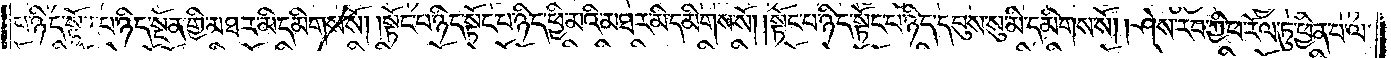པ་ཉིད་སྟོང་པ་ཉིད་སྔོན་གྱི་མཐར་མི་དམིགས་སོ། །སྟོང་པ་ཉིད་སྟོང་པ་ཉིད་ཕྱི་མའི་མཐར་མི་དམིགས་སོ། །སྟོང་པ་ཉིད་སྟོང་པ་ཉིད་དབུས་སུ་མི་དམིགས་སོ། །ཤེས་རབ་ཀྱི་ཕ་རོལ་ཏུ་ཕྱིན་པ་ལ་
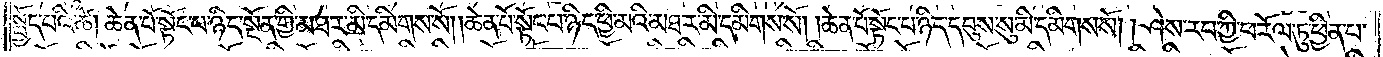སྤྱོད་པའི་ཚེ། ཆེན་པོ་སྟོང་པ་ཉིད་སྔོན་གྱི་མཐར་མི་དམིགས་སོ། །ཆེན་པོ་སྟོང་པ་ཉིད་ཕྱི་མའི་མཐར་མི་དམིགས་སོ། །ཆེན་པོ་སྟོང་པ་ཉིད་དབུས་སུ་མི་དམིགས་སོ། །ཤེས་རབ་ཀྱི་ཕ་རོལ་ཏུ་ཕྱིན་པ་
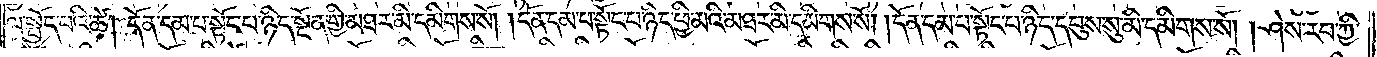ལ་སྤྱོད་པའི་ཚེ། དོན་དམ་པ་སྟོང་པ་ཉིད་སྔོན་གྱི་མཐར་མི་དམིགས་སོ། །དོན་དམ་པ་སྟོང་པ་ཉིད་ཕྱི་མའི་མཐར་མི་དམིགས་སོ། །དོན་དམ་པ་སྟོང་པ་ཉིད་དབུས་སུ་མི་དམིགས་སོ། །ཤེས་རབ་ཀྱི་
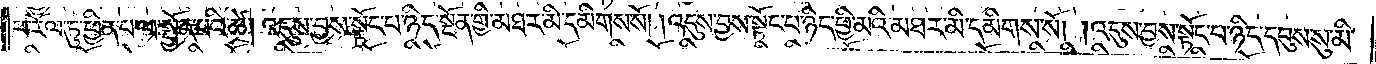ཕ་རོལ་ཏུ་ཕྱིན་པ་ལ་སྤྱོད་པའི་ཚེ། འདུས་བྱས་སྟོང་པ་ཉིད་སྔོན་གྱི་མཐར་མི་དམིགས་སོ། །འདུས་བྱས་སྟོང་པ་ཉིད་ཕྱི་མའི་མཐར་མི་དམིགས་སོ། །འདུས་བྱས་སྟོང་པ་ཉིད་དབུས་སུ་མི་
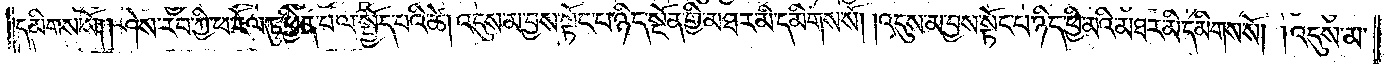དམིགས་སོ། །ཤེས་རབ་ཀྱི་ཕ་རོལ་ཏུ་ཕྱིན་པ་ལ་སྤྱོད་པའི་ཚེ། འདུས་མ་བྱས་སྟོང་པ་ཉིད་སྔོན་གྱི་མཐར་མི་དམིགས་སོ། །འདུས་མ་བྱས་སྟོང་པ་ཉིད་ཕྱི་མའི་མཐར་མི་དམིགས་སོ། །འདུས་མ་
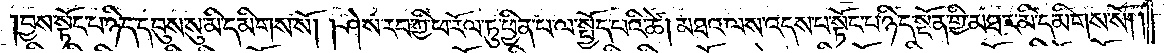བྱས་སྟོང་པ་ཉིད་དབུས་སུ་མི་དམིགས་སོ། །ཤེས་རབ་ཀྱི་ཕ་རོལ་ཏུ་ཕྱིན་པ་ལ་སྤྱོད་པའི་ཚེ། མཐའ་ལས་འདས་པ་སྟོང་པ་ཉིད་སྔོན་གྱི་མཐར་མི་དམིགས་སོ། །
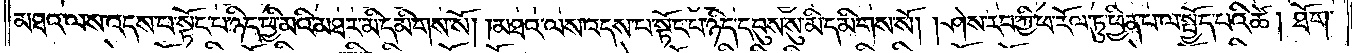མཐའ་ལས་འདས་པ་སྟོང་པ་ཉིད་ཕྱི་མའི་མཐར་མི་དམིགས་སོ། །མཐའ་ལས་འདས་པ་སྟོང་པ་ཉིད་དབུས་སུ་མི་དམིགས་སོ། །ཤེས་རབ་ཀྱི་ཕ་རོལ་ཏུ་ཕྱིན་པ་ལ་སྤྱོད་པའི་ཚེ། ཐོག་
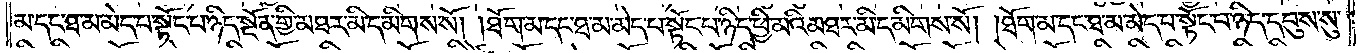མ་དང་ཐ་མ་མེད་པ་སྟོང་པ་ཉིད་སྔོན་གྱི་མཐར་མི་དམིགས་སོ། །ཐོག་མ་དང་ཐ་མ་མེད་པ་སྟོང་པ་ཉིད་ཕྱི་མའི་མཐར་མི་དམིགས་སོ། །ཐོག་མ་དང་ཐ་མ་མེད་པ་སྟོང་པ་ཉིད་དབུས་སུ་
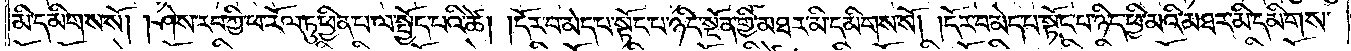མི་དམིགས་སོ། །ཤེས་རབ་ཀྱི་ཕ་རོལ་ཏུ་ཕྱིན་པ་ལ་སྤྱོད་པའི་ཚེ། དོར་བ་མེད་པ་སྟོང་པ་ཉིད་སྔོན་གྱི་མཐར་མི་དམིགས་སོ། །དོར་བ་མེད་པ་སྟོང་པ་ཉིད་ཕྱི་མའི་མཐར་མི་དམིགས་
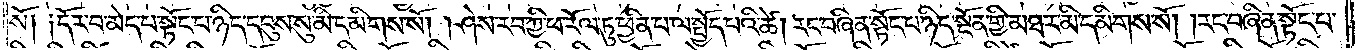སོ༑ ༑དོར་བ་མེད་པ་སྟོང་པ་ཉིད་དབུས་སུ་མི་དམིགས་སོ། །ཤེས་རབ་ཀྱི་ཕ་རོལ་ཏུ་ཕྱིན་པ་ལ་སྤྱོད་པའི་ཚེ། རང་བཞིན་སྟོང་པ་ཉིད་སྔོན་གྱི་མཐར་མི་དམིགས་སོ། །རང་བཞིན་སྟོང་པ་
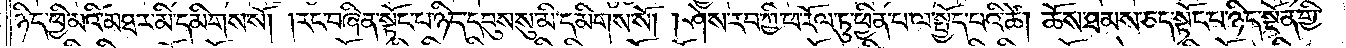ཉིད་ཕྱི་མའི་མཐར་མི་དམིགས་སོ། །རང་བཞིན་སྟོང་པ་ཉིད་དབུས་སུ་མི་དམིགས་སོ། །ཤེས་རབ་ཀྱི་ཕ་རོལ་ཏུ་ཕྱིན་པ་ལ་སྤྱོད་པའི་ཚེ། ཆོས་ཐམས་ཅད་སྟོང་པ་ཉིད་སྔོན་གྱི་
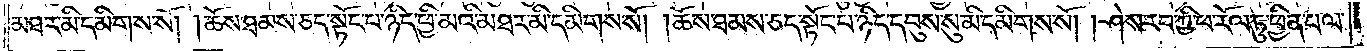མཐར་མི་དམིགས་སོ། །ཆོས་ཐམས་ཅད་སྟོང་པ་ཉིད་ཕྱི་མའི་མཐར་མི་དམིགས་སོ། །ཆོས་ཐམས་ཅད་སྟོང་པ་ཉིད་དབུས་སུ་མི་དམིགས་སོ། །ཤེས་རབ་ཀྱི་ཕ་རོལ་ཏུ་ཕྱིན་པ་ལ་
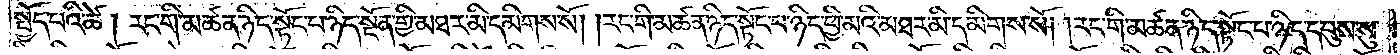སྤྱོད་པའི་ཚེ། རང་གི་མཚན་ཉིད་སྟོང་པ་ཉིད་སྔོན་གྱི་མཐར་མི་དམིགས་སོ། །རང་གི་མཚན་ཉིད་སྟོང་པ་ཉིད་ཕྱི་མའི་མཐར་མི་དམིགས་སོ། །རང་གི་མཚན་ཉིད་སྟོང་པ་ཉིད་དབུས་སུ་
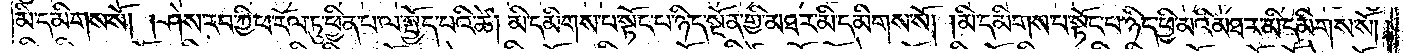མི་དམིགས་སོ། །ཤེས་རབ་ཀྱི་ཕ་རོལ་ཏུ་ཕྱིན་པ་ལ་སྤྱོད་པའི་ཚེ། མི་དམིགས་པ་སྟོང་པ་ཉིད་སྔོན་གྱི་མཐར་མི་དམིགས་སོ། །མི་དམིགས་པ་སྟོང་པ་ཉིད་ཕྱི་མའི་མཐར་མི་དམིགས་སོ། །
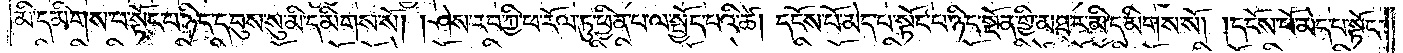མི་དམིགས་པ་སྟོང་པ་ཉིད་དབུས་སུ་མི་དམིགས་སོ། །ཤེས་རབ་ཀྱི་ཕ་རོལ་ཏུ་ཕྱིན་པ་ལ་སྤྱོད་པའི་ཚེ། དངོས་པོ་མེད་པ་སྟོང་པ་ཉིད་སྔོན་གྱི་མཐར་མི་དམིགས་སོ། །དངོས་པོ་མེད་པ་སྟོང་
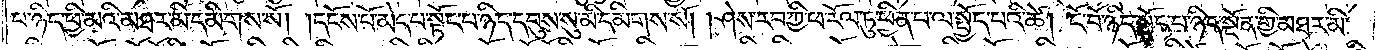པ་ཉིད་ཕྱི་མའི་མཐར་མི་དམིགས་སོ། །དངོས་པོ་མེད་པ་སྟོང་པ་ཉིད་དབུས་སུ་མི་དམིགས་སོ། །ཤེས་རབ་ཀྱི་ཕ་རོལ་ཏུ་ཕྱིན་པ་ལ་སྤྱོད་པའི་ཚེ། ངོ་བོ་ཉིད་སྟོང་པ་ཉིད་སྔོན་གྱི་མཐར་མི་
